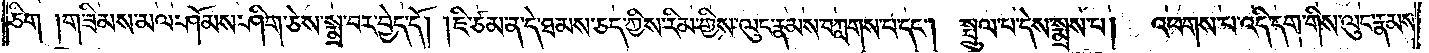ཅིག །གཟིམས་མལ་ཤོམས་ཤིག་ཅེས་སྨྲ་བར་བྱེད་དོ། །ཇི་ཙམ་ན་དེ་ཐམས་ཅད་ཀྱིས་རིམ་གྱིས་ལུང་རྣམས་བཀླགས་པ་དང༌། སྤྲུལ་པ་དེས་སྨྲས་པ། འཕགས་པ་འདི་དག་གིས་ལུང་རྣམས་
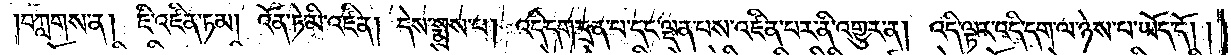།བཀླགས་ན། ཇི་འཛིན་ཏམ། འོན་ཏེ་མི་འཛིན། དེས་སྨྲས་པ། འདི་དག་དྲན་པ་དང་ལྡན་པས་འཛིན་པར་ནི་འགྱུར་ན། འདི་ལྟར་འདི་དག་ལ་ཉེས་པ་ཡོད་དོ། །
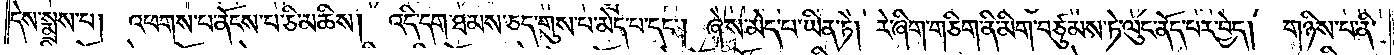དེས་སྨྲས་པ། འཕགས་པ་ནོངས་པ་ཅི་མཆིས། འདི་དག་ཐམས་ཅད་གུས་པ་མེད་པ་དང༌། ཞེ་ས་མེད་པ་ཡིན་ཏེ། རེ་ཞིག་གཅིག་ནི་མིག་བཙུམས་ཏེ་ལུང་ནོད་པར་བྱེད། གཉིས་པ་ནི་
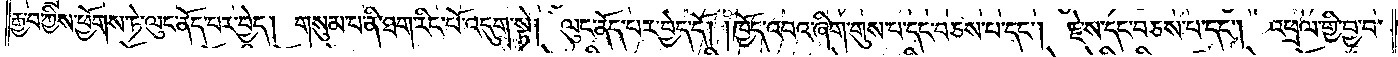རྒྱབ་ཀྱིས་ཕྱོགས་ཏེ་ལུང་ནོད་པར་བྱེད། གསུམ་པ་ནི་ཐག་རིང་པོ་འདུག་སྟེ། ལུང་ནོད་པར་བྱེད་དོ། །ཁྱོད་འབའ་ཞིག་གུས་པ་དང་བཅས་པ་དང༌། རྗེས་དང་བཅས་པ་དང༌། འཕྲལ་གྱི་བྱ་བ་
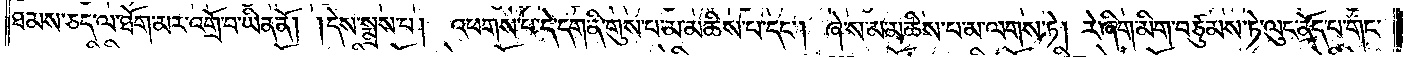ཐམས་ཅད་ལ་ཐོག་མར་འགྲོ་པ་ཡིན་ནོ། །དེས་སྨྲས་པ། འཕགས་པ་དེ་དག་ནི་གུས་པ་མ་མཆིས་པ་དང༌། ཞེ་ས་མ་མཆིས་པ་མ་ལགས་ཏེ། རེ་ཞིག་མིག་བཙུམས་ཏེ་ལུང་ནོད་པ་གང་
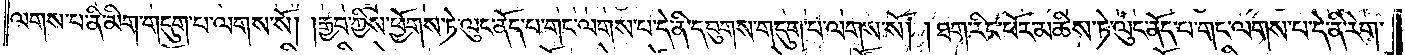ལགས་པ་ནི་མིག་གདུག་པ་ལགས་སོ། །རྒྱབ་ཀྱིས་ཕྱོགས་ཏེ་ལུང་ནོད་པ་གང་ལགས་པ་དེ་ནི་དབུགས་གདུག་པ་ལགས་སོ། །ཐག་རིང་པོར་མཆིས་ཏེ་ལུང་ནོད་པ་གང་ལགས་པ་དེ་ནི་རེག་
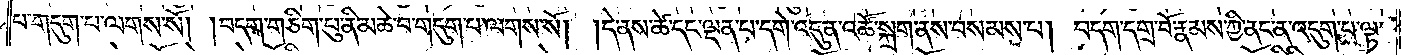པ་གདུག་པ་ལགས་སོ། །བདག་གཅིག་པུ་ནི་མཆེ་བ་གདུག་པ་ལགས་སོ། །དེ་ནས་ཚེ་དང་ལྡན་པ་དགེ་འདུན་འཚོ་སྐྲག་ནས་བསམས་པ། བདག་དགྲ་བོ་རྣམས་ཀྱི་ནང་ན་འདུག་པ་ལྟ་
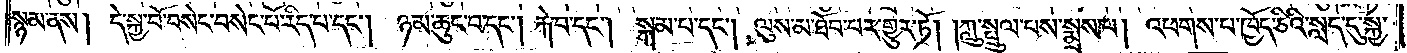སྙམ་ནས། དེ་སྐྱ་བོ་བསེང་བསེང་པོ་རིད་པ་དང༌། ཉམ་ཆུང་བ་དང༌། རྐེ་བ་དང༌། སྐམ་པ་དང༌། ལུས་མ་ཐོབ་པར་གྱུར་ཏོ། །ཀླུ་སྤྲུལ་པས་སྨྲས་པ། འཕགས་པ་ཁྱོད་ཅིའི་སླད་དུ་སྐྱ་
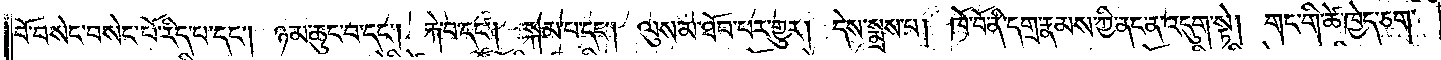བོ་བསེང་བསེང་པོ་རིད་པ་དང༌། ཉམ་ཆུང་བ་དང༌། རྐེ་བ་དང༌། སྐམ་པ་དང༌། ལུས་མ་ཐོབ་པར་གྱུར། དེས་སྨྲས་པ། ཁོ་བོ་ནི་དགྲ་རྣམས་ཀྱི་ནང་ན་འདུག་སྟེ། གང་གི་ཆེ་ཁྱེད་ཅག་
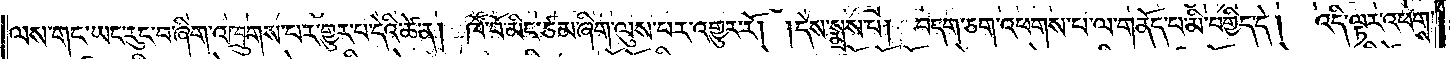ལས་གང་ཡང་རུང་ཞིག་འཁྲུགས་པར་གྱུར་པ་དེའི་ཚེ་ན། ཁོ་བོ་མིང་ཙམ་ཞིག་ལུས་པར་འགྱུར་རོ། །དེས་སྨྲས་པ། བདག་ཅག་འཕངས་པ་ལ་གནོད་པ་མི་བགྱིད་དེ།  དི་ལྟར་འཕགས་
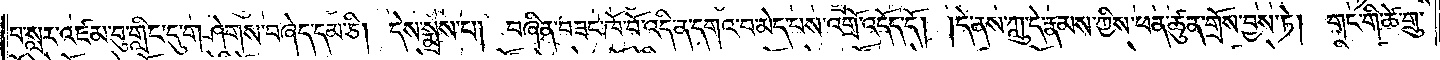བ་སླར་འཛམ་བུ་གླིང་དུ་གཤེགས་བཞེད་དམ་ཅི། དེས་སྨྲས་པ། བཞིན་བཟང་ཁོ་བོ་འདི་ན་དགའ་བ་མེད་པས་འགྲོ་འདོད་དོ། །དེ་ནས་ཀླུ་དེ་རྣམས་ཀྱིས་ཕན་ཚུན་གྲོས་བྱས་ཏེ། གང་གི་ཚེ་གྲུ་
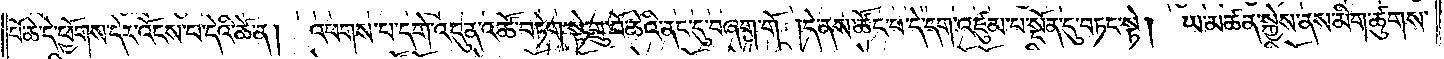པོ་ཆེ་དེ་ཕྱོགས་དེར་འོངས་པ་དེའི་ཚེ་ན། འཕགས་པ་དགེ་འདུན་འཚོ་བཏེག་སྟེ་གྲུ་བོ་ཆེའི་ནང་དུ་བཞག་གོ །དེ་ནས་ཚོང་པ་དེ་དག་འཛུམ་པ་སྔོན་དུ་བཏང་སྟེ། ཡ་མཚན་སྐྱེས་ནས་མིག་ཚུགས་
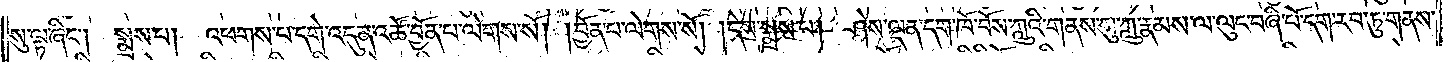སུ་ལྟ་ཞིང༌། སྨྲས་པ། འཕགས་པ་དགེ་འདུན་འཚོ་བྱོན་པ་ལེགས་སོ། །བྱོན་པ་ལེགས་སོ། །དེས་སྨྲས་པ། ཤེས་ལྡན་དག་ཁོ་བོས་ཀླུའི་གནས་སུ་ཀླུ་རྣམས་ལ་ལུང་བཞི་པོ་དག་རབ་ཏུ་གནས་
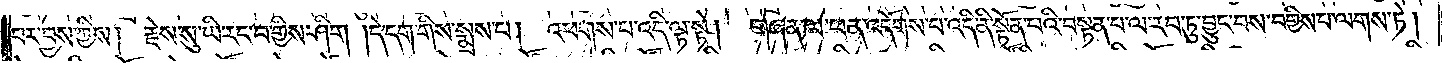པར་བྱས་ཀྱིས། རྗེས་སུ་ཡི་རང་བགྱིས་ཤིག །དེ་དག་གིས་སྨྲས་པ། འཕགས་པ་འདི་ལྟ་སྟེ།  གཞན་ལ་ཕན་འདོགས་པ་འདི་ནི་སྟོན་པའི་བསྟན་པ་ལ་རབ་ཏུ་བྱུང་བས་བགྱིས་པ་ལགས་ཏེ།
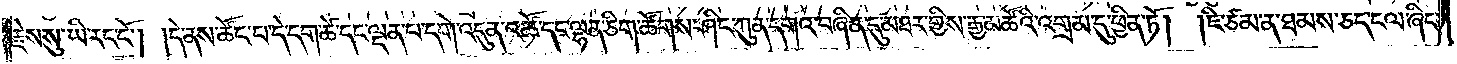རྗེས་སུ་ཡི་རང་ངོ༌། །དེ་ནས་ཚོང་པ་དེ་དག་ཚེ་དང་ལྡན་པ་དགེ་འདུན་འཚོ་དང་ལྷན་ཅིག་ཚོགས་ཤིང་ཀུན་དགའ་བཞིན་དུ་མཐར་གྱིས་རྒྱ་མཚོའི་འགྲམ་དུ་ཕྱིན་ཏོ།  །ཇི་ཙམ་ན་ཐམས་ཅད་ངལ་ཞིང་
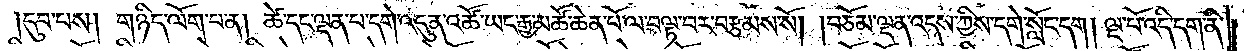དུབ་པས། གཉིད་ལོག་པ་ན། ཚེ་དང་ལྡན་པ་དགེ་འདུན་འཚོ་ཡང་རྒྱ་མཚོ་ཆེན་པོ་ལ་བལྟ་བར་བརྩམས་སོ། །བཅོམ་ལྡན་འདས་ཀྱིས་དགེ་སློང་དག། ལྔ་པོ་འདི་དག་ནི་
